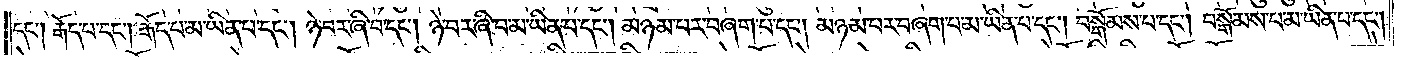དང༌། རྒོད་པ་དང༌། རྒོད་པ་མ་ཡིན་པ་དང༌། ཉེ་བར་ཞི་བ་དང༌། ཉེ་བར་ཞི་བ་མ་ཡིན་པ་དང༌། མཉམ་པར་བཞག་པ་དང༌། མཉམ་པར་བཞག་པ་མ་ཡིན་པ་དང༌། བསྒོམས་པ་དང༌། བསྒོམས་པ་མ་ཡིན་པ་དང༌།
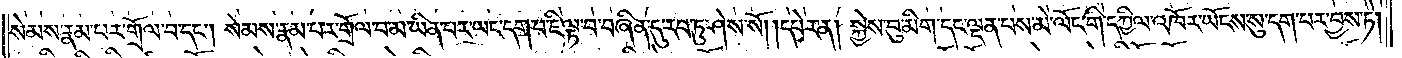སེམས་རྣམ་པར་གྲོལ་བ་དང༌། སེམས་རྣམ་པར་གྲོལ་བ་མ་ཡིན་པར་ཡང་དག་པ་ཇི་ལྟ་བ་བཞིན་དུ་རབ་ཏུ་ཤེས་སོ། །དཔེར་ན། སྐྱེས་བུ་མིག་དང་ལྡན་པས་མེ་ལོང་གི་དཀྱིལ་འཁོར་ཡོངས་སུ་དག་པར་བྱས་ཏེ།
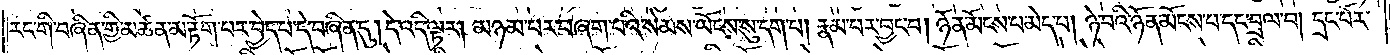རང་གི་བཞིན་གྱི་མཚན་མ་རྟོག་པར་བྱེད་པ་དེ་བཞིན་དུ། དེ་འདི་ལྟར། མཉམ་པར་བཞག་པའི་སེམས་ཡོངས་སུ་དག་པ། རྣམ་པར་བྱང་བ། ཉོན་མོངས་པ་མེད་པ། ཉེ་བའི་ཉོན་མོངས་པ་དང་བྲལ་བ། དྲང་པོར་
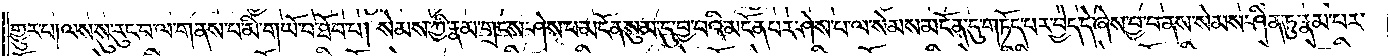གྱུར་པ། ལས་སུ་རུང་བ་ལ་གནས་པ་མི་གཡོ་བ་ཐོབ་པ། སེམས་ཀྱི་རྣམ་གྲངས་ཤེས་པ་མངོན་སུམ་དུ་བྱ་བའི་མངོན་པར་ཤེས་པ་ལ་སེམས་མངོན་དུ་གཏོད་པར་བྱེད་དེ་ཞེས་བྱ་བ་ནས་སེམས་ཤིན་ཏུ་རྣམ་པར་
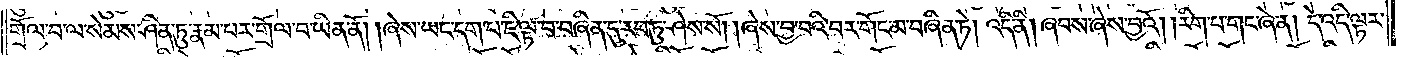གྲོལ་བ་ལ་སེམས་ཤིན་ཏུ་རྣམ་པར་གྲོལ་བ་ཡིན་ནོ། །ཞེས་ཡང་དག་པ་ཇི་ལྟ་བ་བཞིན་དུ་རབ་ཏུ་ཤེས་སོ། །ཞེས་བྱ་བའི་བར་གོང་མ་བཞིན་ཏེ། འདི་ནི། ཞབས་ཞེས་བྱའོ། །རིག་པ་གང་ཞེ་ན། དེ་འདི་ལྟར་
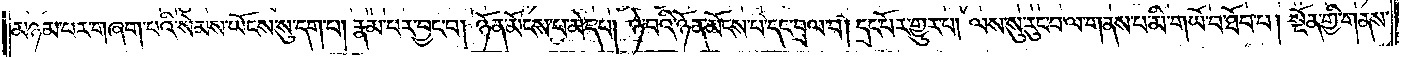མཉམ་པར་གཞག་པའི་སེམས་ཡོངས་སུ་དག་པ། རྣམ་པར་བྱང་བ། ཉོན་མོངས་པ་མེད་པ། ཉེ་བའི་ཉོན་མོངས་པ་དང་བྲལ་བ། དྲང་པོར་གྱུར་པ། ལས་སུ་རུང་བ་ལ་གནས་པ་མི་གཡོ་བ་ཐོབ་པ། སྔོན་གྱི་གནས་
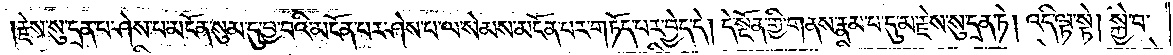།རྗེས་སུ་དྲན་པ་ཤེས་པ་མངོན་སུམ་དུ་བྱ་བའི་མངོན་པར་ཤེས་པ་ལ་སེམས་མངོན་པར་གཏོད་པར་བྱེད་དེ། དེ་སྔོན་གྱི་གནས་རྣམ་པ་དུ་མ་རྗེས་སུ་དྲན་ཏེ། འདི་ལྟ་སྟེ། སྐྱེ་བ་
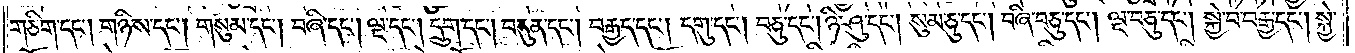གཅིག་དང༌། གཉིས་དང༌། གསུམ་དང༌། བཞི་དང༌། ལྔ་དང༌། དྲུག་དང༌། བདུན་དང༌། བརྒྱད་དང༌། དགུ་དང༌། བཅུ་དང༌། ཉི་ཤུ་དང༌། སུམ་ཅུ་དང༌། བཞི་བཅུ་དང༌། ལྔ་བཅུ་དང༌། སྐྱེ་བ་བརྒྱ་དང༌། སྐྱེ་
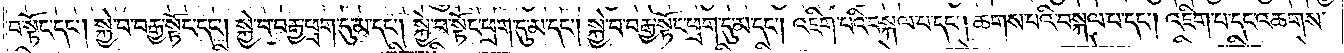བ་སྟོང་དང༌། སྐྱེ་བ་བརྒྱ་སྟོང་དང༌། སྐྱེ་བ་བརྒྱ་ཕྲག་དུ་མ་དང༌། སྐྱེ་བ་སྟོང་ཕྲག་དུ་མ་དང༌། སྐྱེ་བ་བརྒྱ་སྟོང་ཕྲག་དུ་མ་དང༌། འཇིག་པའི་བསྐལ་པ་དང༌། ཆགས་པའི་བསྐལ་པ་དང༌། འཇིག་པ་དང་འཆགས་
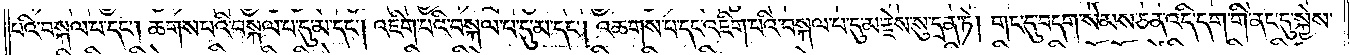པའི་བསྐལ་པ་དང༌། ཆགས་པའི་བསྐལ་པ་དུ་མ་དང༌། འཇིག་པའི་བསྐལ་པ་དུ་མ་དང༌། འཆགས་པ་དང་འཇིག་པའི་བསྐལ་པ་དུ་མ་རྗེས་སུ་དྲན་ཏེ། གང་དུ་བདག་སེམས་ཅན་འདི་དག་གི་ནང་དུ་སྐྱེས་
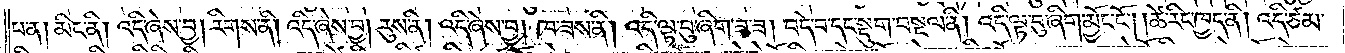པ་ན། མིང་ནི། འདི་ཞེས་བྱ། རིགས་ནི། འདི་ཞེས་བྱ། རུས་ནི། འདི་ཞེས་བྱ། ཁ་ཟས་ནི། འདི་ལྟ་བུ་ཞིག་ཟ་ཟ། བདེ་བ་དང་སྡུག་བསྔལ་ནི། འདི་ལྟ་བུ་ཞིག་མྱོང་ངོ༌། །ཚེ་རིང་ཁྱད་ནི། འདི་ཙམ་
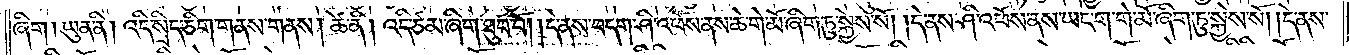ཞིག །ཡུན་ནི། འདི་སྲིད་ཅིག་གནས་གནས། ཚེ་ནི། འདི་ཙམ་ཞིག་ཐུབ་བོ། །དེ་ནས་བདག་ཤི་འཕོས་ནས་ཆེ་གེ་མོ་ཞིག་ཏུ་སྐྱེས་སོ། །དེ་ནས་ཤི་འཕོས་ནས་ཡང་ག་གེ་མོ་ཞིག་ཏུ་སྐྱེས་སོ། །དེ་ནས་
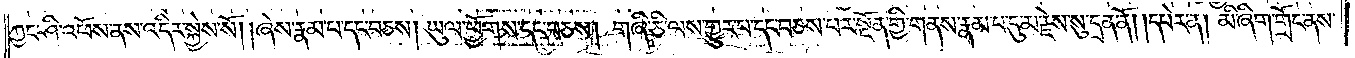ཀྱང་ཤི་འཕོས་ནས་འདིར་སྐྱེས་སོ། །ཞེས་རྣམ་པ་དང་བཅས། ཡུལ་ཕྱོགས་དང་བཅས། གཞི་ཅི་ལས་གྱུར་པ་དང་བཅས་པར་སྔོན་གྱི་གནས་རྣམ་པ་དུ་མ་རྗེས་སུ་དྲན་ནོ། །དཔེར་ན། མི་ཞིག་གྲོང་ནས་
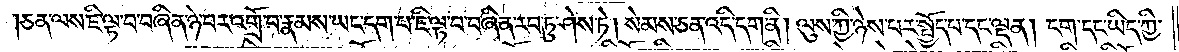ཅན་ལས་ཇི་ལྟ་བ་བཞིན་ཉེ་བར་འགྲོ་བ་རྣམས་ཡང་དག་པ་ཇི་ལྟ་བ་བཞིན་རབ་ཏུ་ཤེས་ཏེ། སེམས་ཅན་འདི་དག་ནི། ལུས་ཀྱི་ཉེས་པར་སྤྱོད་པ་དང་ལྡན། ངག་དང་ཡིད་ཀྱི་
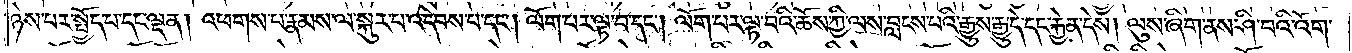ཉེས་པར་སྤྱོད་པ་དང་ལྡན། འཕགས་པ་རྣམས་ལ་སྐུར་བ་འདེབས་པ་དང༌། ལོག་པར་ལྟ་བ་དང༌། ལོག་པར་ལྟ་བའི་ཆོས་ཀྱི་ལས་བླངས་པའི་རྒྱུས་རྒྱུ་དེ་དང་རྐྱེན་དེས། ལུས་ཞིག་ནས་ཤི་བའི་འོག་
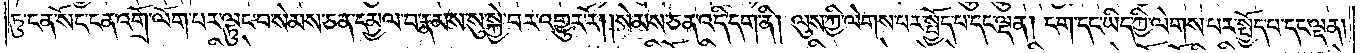ཏུ་ངན་སོང་ངན་འགྲོ་ལོག་པར་ལྟུང་བ་སེམས་ཅན་དམྱལ་བ་རྣམས་སུ་སྐྱེ་བར་འགྱུར་རོ། །སེམས་ཅན་འདི་དག་ནི། ལུས་ཀྱི་ལེགས་པར་སྤྱོད་པ་དང་ལྡན། ངག་དང་ཡིད་ཀྱི་ལེགས་པར་སྤྱོད་པ་དང་ལྡན་
